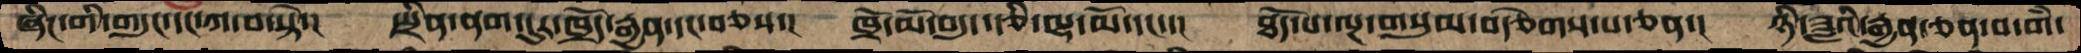ཞིང་གི་གདུང་དང་ཀ་བ་སྟེ་།  སྤྲིན་ནག་དུར་ཁྲོད་རྒྱན་དང་བཅས་། ཁྲོ་མོ་བདུད་རྩི་ལྷ་མོ་དང་་། ཐོད་པ་ལྔ་གསུམ་བརྩེགས་པ་ཅན་། ཉི་ཟླའི་རྒྱན་ཅན་བ་གཾ་
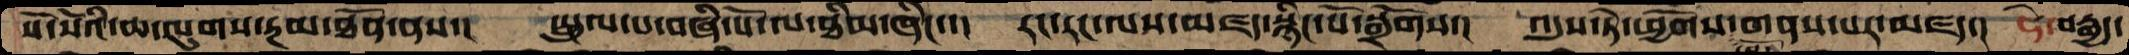སོ་སོའི་ཆ་ལུགས་རྔམ་ཐོན་ནས་། སྤྲུལ་པ་བཞི་པོ་ལ་ཐིམ་ཞིང་་།  རང་རང་ལས་མཛད་སྙིང་པོ་སྒྲོགས་། འདུས་ཏེ་ཕྱོགས་གནས་པར་མཛད་།  ཧེ་བརྒྱད་
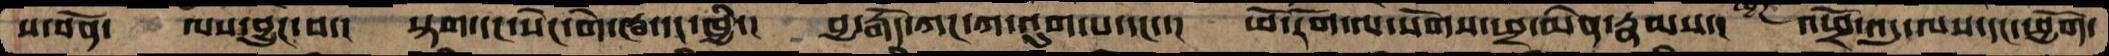ས་བོན་  ལས་བྱུང་བ་།  སྟག་དང་སེང་གེ་ཝ་དང་ཁྱི་།  བྱ་རྒོད་ཀང་ཀ་འུག་པ་དང་་། ཕོ་རོག་ལ་སོགས་ཕྲ་མེན་རྣམས་། འཕྲོ་འདུ་ལས་དང་ཕྱོག་
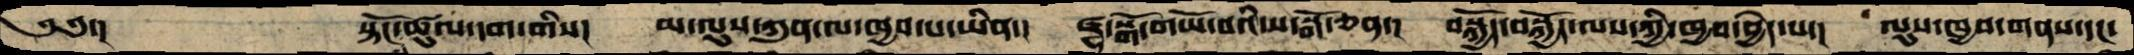༄༅་།       སྟོང་ཚུལ་དག་གིས།  མ་ལུས་ཀུན་ལ་ཁྱབ་པ་ཡིན་། ཛྷ་སྒོ་གཡོ་བའི་ས་སྒོ་ཅན་། བསྐྱོད་བསྐྱོད་ལས་ཀྱི་ཁྱབ་བྱེད་པ་།  ལུས་ཁྱབ་གནས་དང་
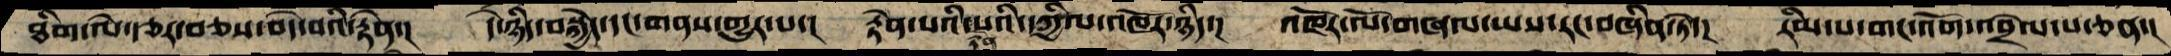ཐིག་ལེ་རྩར་བཅས་བདེ་བའི་རྟེན་།  དེ་ཉིད་བསྐྱེད་དང་གནས་གྱུར་པ་།  རྟེན་པའི་རྟེན་པའི་དཀྱིལ་འཁོར་ཉིད་།   འཁོར་ལོ་གཞལ་ཡས་རང་བཞིན་ཏེ་།  རིམ་པ་གང་འོག་འབྲེལ་པ་ཅན་།
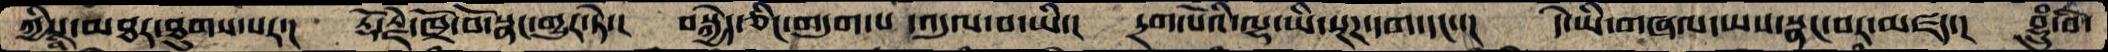ཀྱིས་མཐར་ཐུགས་པར་།  རྡོ་རྗེ་ཁྲོ་བོ་སྣང་གྱུར་ཏེ་།  བསྐྱེད་ཅིང་གདུག་པ་འདུལ་བ་ཡི་།  དྲག་པོའི་ལྷ་ཡི་སྔཌ་དག་དང་་།  དེ་ཡི་གཞལ་ཡས་སྣང་བར་མཛད་།  བྷྲུཾ་བི་
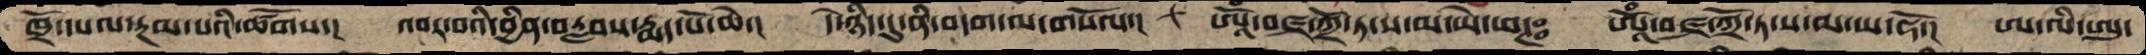ཁྲོ་དཔལ་རྔམ་པའི་ཚོགས་།  འབར་བའི་བྱིན་བརླབས་རྨད་པོ་ཆེ་།  དེ་ཉིད་དུ་ནི་བདག་ལ་གསོལ་།  ཨཱོཾ་བཛྲ་ཀྲོ་ཏ་ས་མ་ཡེ་ཕཊཿ  ཨཱོཾ་བཛྲ་ཀྲོ་ཏ་ས་མ་ཡ་ཧོ་།  ཨ་ལི་ཨུ་
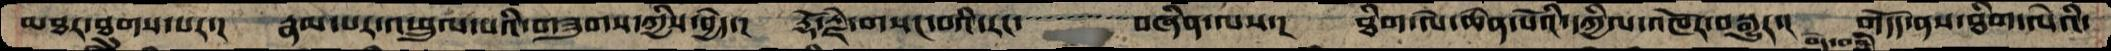མཐར་ཐུགས་པར་།  རྣམ་པར་འཕྲུལ་པའི་གཟུགས་ཀྱིས་བྱེད་།  རྡོ་རྗེ་གསང་བའི་རང་་་་་་་་་་་་བཞིན་ལས་།  ཐིག་ལེ་ཆེན་པོའི་དཀྱིལ་འཁོར་བསྒྱུར་།  གདོད་ནས་ཐིག་ལེའི་
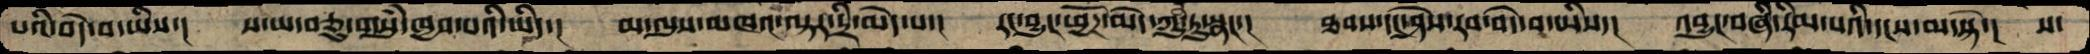པའི་བདེ་བ་ཡིས་།  ས་ཡ་བཅུ་གསུཾ་ཁྱབ་པའི་ཡིད་།  མ་ལུས་མཁའ་ལྟར་དྲི་མེད་པ་།  རང་བྱུང་ཕྱོཌ་མེད་ཀུན་ཏུ་སྣང་་།  ཐབས་དང་ཤེས་རབ་བདེ་བ་ཡིས་།  འབྱུང་བཞི་རིམ་པའི་དངས་མ་སྟེ་།  ས་
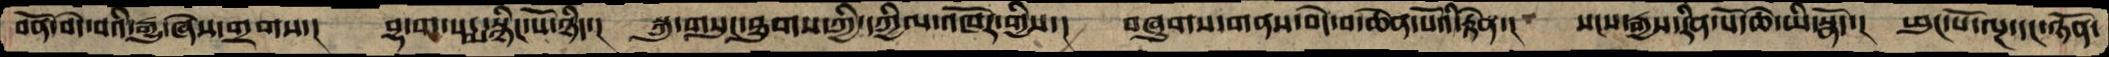བོན་བདེ་བའི་རྒྱུ་ཞེས་གྲགས་། བྷ་ག་པདྨ་སྙིང་པོ་ཉིད་། སྐུ་གསུང་ཐུགས་ཀྱི་དཀྱིལ་འཁོར་གྱིས་།  བཞུགས་གནས་བདེ་བ་ཆེན་པོའི་རྟེན་། སངས་རྒྱས་རིན་པོ་ཆེ་ཡི་སྣོད་།  ཕུང་པོ་ལྔ་དང་ཉོན་
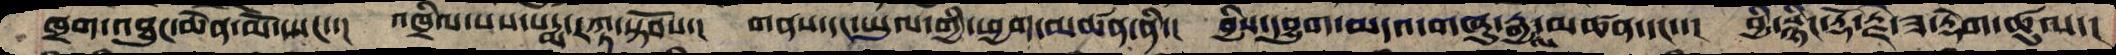ཁྲག་འཐུང་ཆེན་མོ་ཡང་་།  འཁྲིལ་པས་པདྨ་རཀྟ་སྟོབས་། གནས་དང་ཡུལ་གྱི་ཕྱག་མཚན་ནི་།  བྱིས་དབྱུག་མདའ་གཞུ་རྒྱལ་མཚན་དང་་། བྱི་སྙིང་རྡོ་རྗེ་ཟ་རྡེག་ཚུལ་།
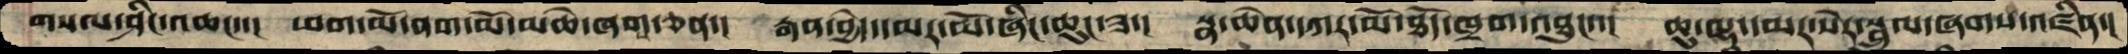གསལ་ཤིང་འཆང་་། ཕག་མོ་ནག་མོ་མཆེ་ཞགས་ཅན་། རྒན་བྱེད་དམར་མོ་ཞིང་ཆུང་ཟ་། སྣ་ཆེན་དཀར་མོ་ཐོད་ཁྲག་འཐུང་་། ཆུ་ལྷ་དམར་སེར་སྦྲུལ་ཞགས་འཛིན་།
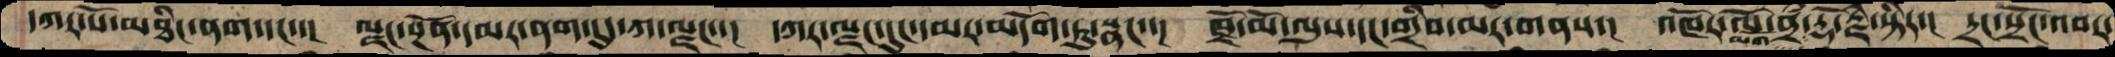དཀར་པོ་མཐིང་ནག་དང་་།  ལྗང་སྔོན་དམར་ནག་དུད་ཀ་ལྗང་་། དཀར་ལྗང་དུང་དམར་མདོག་ཏུ་སྣང་་། ཁྲོ་མོ་ལུས་དང་གྲིབ་མར་གནས་། འཁོར་ལོ་མགོ་ནྲི་རྡོ་རྗེ་སྟིར་།  དྲང་སྲོང་འབར་
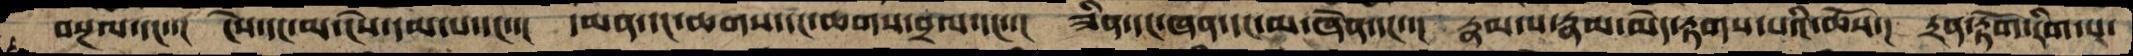བསྔལ་དང་་། ངེས་དང་མ་ངེས་དམ་པ་དང་་། དམན་དང་ཆགས་དང་ཆགས་བྲལ་དང་་། ཟིན་དང་ཞན་དང་མ་ཞེན་དང་་། རྣམ་པ་རྣམ་མེད་རྟགས་པའི་ཆོས་། དྲན་རྟོག་རིག་པ་
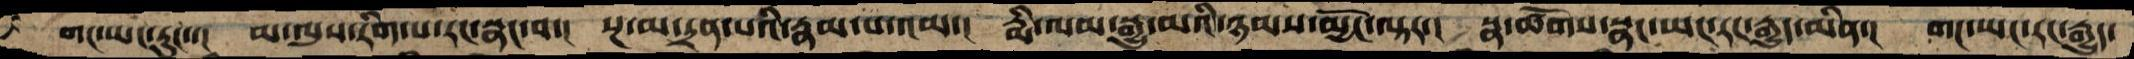གང་ཡང་རུང་་། མ་ལུས་རིག་པ་རང་སྣང་བ་། སྔ་མ་དྲན་པའི་རྣམ་པ་འམ་། རྨི་ལམ་སྒྱུ་མའི་ཉམས་མྱོང་ལྟར་། སྣ་ཚོགས་སྣང་ཡང་རང་རྒྱུད་མིན་། གང་ཡང་རང་རྒྱུད་
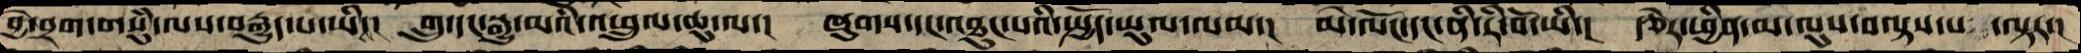བྱེ་བྲག་གསུཾ་ལས་བརྒྱུད་པ་ཡིས་། གྲུ་དང་སྒྱུ་མའི་འཕྲུལ་ཆུ་ལ་། ཞུགས་དང་འཐུང་པའི་སྤྱོད་ཡུལ་ལམ་། མེ་ལོང་དང་ནི་རི་བོ་ཡི་། རྩེར་ཕྱིན་མ་ལུས་བལྟས་པ་ལྟར་།
